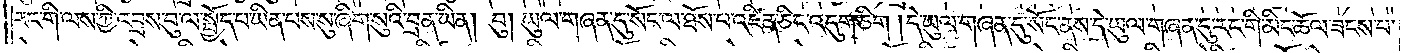རང་གི་ལས་ཀྱི་འབྲས་བུ་ལ་སྤྱོད་པ་ཡིན་པས་སུ་ཞིག་སུའི་བྲན་ཡིན། བུ། ཡུལ་གཞན་དུ་སོང་ལ་ཐོས་པ་འཛིན་ཅིང་འདུག་ཅིག། དེ་ཡུལ་གཞན་དུ་སོང་ནས་དེ་ཡུལ་གཞན་དུ་རང་གི་མིང་ཆོལ་ཟངས་པ་
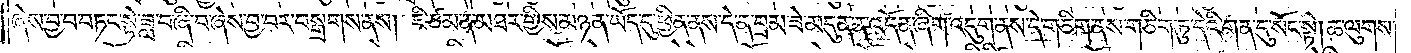ཞེས་བྱ་བ་བཏང་སྟེ་ཟླ་བ་ཞི་བ་ཞེས་བྱ་བར་བསྒྲགས་ནས། ཇི་ཙམ་ན་མཐར་གྱིས་མཉན་ཡོད་དུ་ཕྱིན་ནས་དེ་ན་བྲམ་ཟེ་མདུན་ན་འདོན་ཞིག་འདུག་ནས་དེ་གཅིག་ནས་གཅིག་ཏུ་དེའི་གན་དུ་སོང་སྟེ། ཆ་ལུགས་
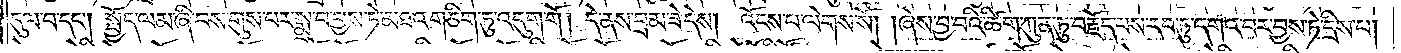དུལ་བ་དང༌། སྤྱོད་ལམ་ཞི་བས་གུས་པར་སྨྲ་བར་བྱས་ཏེ་མཐའ་གཅིག་ཏུ་འདུག་གོ། དེ་ནས་བྲམ་ཟེ་དེས། འོངས་པ་ལེགས་སོ། །ཞེས་བྱ་བའི་ཚིག་ཀུན་ཏུ་བརྗོད་པས་རབ་ཏུ་དགའ་བར་བྱས་ཏེ་དྲིས་པ།
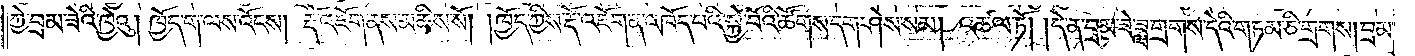ཀྱེ་བྲམ་ཟེའི་ཁྱེའུ། ཁྱོད་ག་ལས་འོངས། རྡོ་འཇོག་ནས་མཆིས་སོ། །ཁྱོད་ཀྱིས་རྡོ་འཇོག་ན་འཁོད་པའི་སྐྱེ་བོའི་ཚོགས་དག་ཤེས་སམ། འཚལ་ཏོ། །དེ་ནས་བྲམ་ཟེ་ཟླ་གྲགས་དེའི་གཏམ་ཅི་གྲགས། བྲམ་
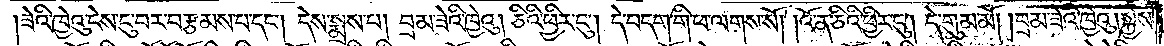ཟེའི་ཁྱེའུ་ངེས་ངུ་བར་བརྩམས་པ་དང༌། དེས་སྨྲས་པ། བྲམ་ཟེའི་ཁྱེའུ། ཅིའི་ཕྱིར་ངུ༌། དེ་བདག་གི་ཕ་ལགས་སོ། །འོ་ན་ཅིའི་ཕྱིར་ངུ༌། དེ་གུམ་མོ། །བྲམ་ཟེའི་ཁྱེའུ། སྐྱེས་
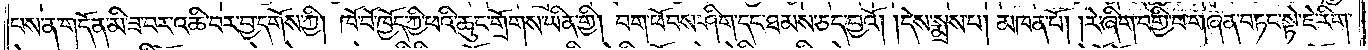པས་ན་གདོན་མི་ཟ་བར་འཆི་བར་བྱ་དགོས་ཀྱི། ཁོ་བོ་ཁྱོད་ཀྱི་ཕའི་ཆུང་གྲོགས་ཡིན་གྱི། བག་ཕོབས་ཤིག་དང་ཐམས་ཅད་བྱའོ། །དེས་སྨྲས་པ། མཁན་པོ། །རེ་ཞིག་བགྱི་བ་གཞན་བཏང་སྟེ་ཇེ་རིག་
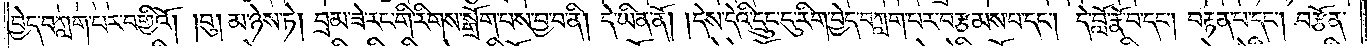བྱེད་བཀླག་པར་བགྱིའོ། །བུ། མ་ཉེས་ཏེ། བྲམ་ཟེ་རང་གི་རིགས་སྒྲོག་པས་བྱ་བ་ནི། དེ་ཡིན་ནོ། །དེས་དེའི་དྲུང་དུ་རིག་བྱེད་བཀླག་པར་བརྩམས་པ་དང༌། དེ་བློ་རྣོ་བ་དང༌། བརྟན་པ་དང༌། བརྩོན་
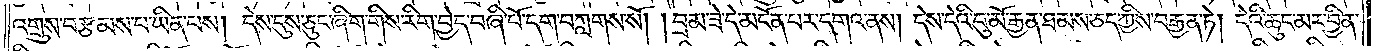འགྲུས་བརྩམས་པ་ཡིན་པས། དེས་དུས་ཅུང་ཞིག་གིས་རིག་བྱེད་བཞི་པོ་དག་བཀླགས་སོ། །བྲམ་ཟེ་དེ་མངོན་པར་དགའ་ནས། དེས་དེའི་བུ་མོ་རྒྱན་ཐམས་ཅད་ཀྱིས་བརྒྱན་ཏེ། དེའི་ཆུང་མར་བྱིན་
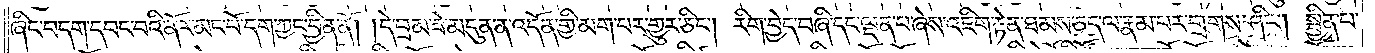ཞིང་བདག་དབང་བའི་ནོར་མང་པོ་དག་ཀྱང་བྱིན་ནོ། །དེ་བྲམ་ཟེ་མདུན་ན་འདོན་གྱི་མག་པར་གྱུར་ཅིང༌། རིག་བྱེད་བཞི་དང་ལྡན་པ་ཞེས་འཇིག་རྟེན་ཐམས་ཅད་ལ་རྣམ་པར་གྲགས་ཤིང༌། སྦྱིན་པ་
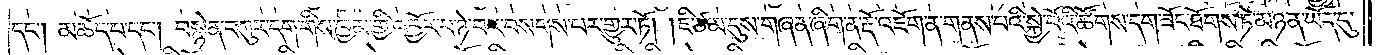དང༌། མཆོད་པ་དང༌། བསྙེན་བཀུར་དག་གིས་ཁྱིམ་གྱི་འབྱོར་པ་ཉེ་བར་བསགས་པར་གྱུར་ཏོ། །ཇི་ཙམ་དུས་གཞན་ཞིག་ན་རྡོ་འཇོག་ན་གནས་པའི་སྐྱེ་བོའི་ཚོགས་དག་ཟོང་ཐོགས་ཏེ་མཉན་ཡོད་དུ་
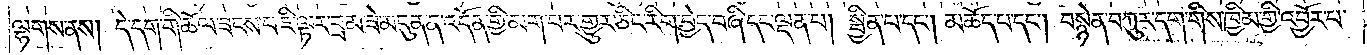ལྷགས་ནས། དེ་དག་གི་ཆོལ་ཟངས་པ་ཇི་ལྟར་བྲམ་ཟེ་མདུན་ན་འདོན་གྱི་མག་པར་གྱུར་ཅིང་རིག་བྱེད་བཞི་དང་ལྡན་པ། སྦྱིན་པ་དང༌། མཆོད་པ་དང༌། བསྙེན་བཀུར་དག་གིས་ཁྱིམ་གྱི་འབྱོར་པ་
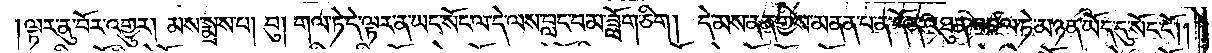ལྟར་ནུ་བོར་འགྱུར། མས་སྨྲས་པ། བུ། གལ་ཏེ་དེ་ལྟར་ན་ཡང་སོང་ལ་དེ་ལས་བླང་བ་མ་ཟློག་ཅིག། དེ་མས་ནན་གྱིས་མནན་པ་ན་དོན་འཐུན་བཙལ་ཏེ་མཉན་ཡོད་དུ་སོང་ངོ༌། །
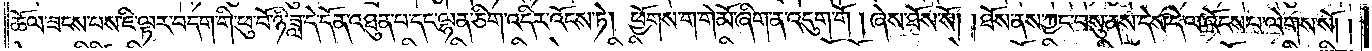ཆོལ་ཟངས་པས་ཇི་ལྟར་བདག་གི་ཕུ་བོ་ཉི་ཟླ་དེ་དོན་འཐུན་པ་དང་ལྷན་ཅིག་འདིར་འོངས་ཏེ། ཕྱོགས་ག་གེ་མོ་ཞིག་ན་འདུག་གོ །ཞེས་ཐོས་སོ། །ཐོས་ནས་ཀྱང་བསུ་ནས་དེས་དེ་ལ་འོངས་པ་ལེགས་སོ། །
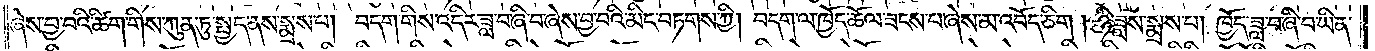ཞེས་བྱ་བའི་ཚིག་གིས་ཀུན་ཏུ་སྤྱད་ནས་སྨྲས་པ། བདག་གིས་འདིར་ཟླ་བཞི་བ་ཞེས་བྱ་བའི་མིང་བཏགས་ཀྱི། བདག་ལ་ཁྱོད་ཆོལ་ཟངས་པ་ཞེས་མ་འབོད་ཅིག། ཉི་ཟླས་སྨྲས་པ། ཁྱོད་ཟླ་བ་ཞི་བ་ཡིན་
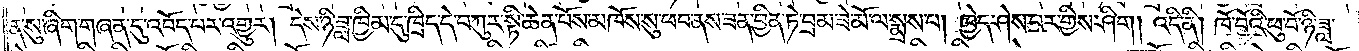ན་སུ་ཞིག་གཞན་དུ་འབོད་པར་འགྱུར། དེས་ཉི་ཟླ་ཁྱིམ་དུ་ཁྲིད་དེ་བཀུར་སྟི་ཆེན་པོས་མཁོས་སུ་ཕབ་ནས་ཟན་བྱིན་ཏེ་བྲམ་ཟེ་མོ་ལ་སྨྲས་པ། ཁྱེད་ཤེས་པར་གྱིས་ཤིག། འདི་ནི། ཁོ་བོའི་ཕུ་བོ་ཉི་ཟླ་
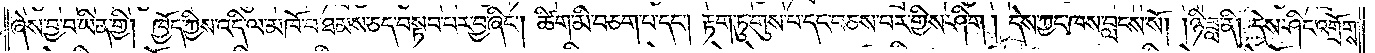ཞེས་བྱ་བ་ཡིན་གྱི། ཁྱོད་ཀྱིས་འདི་ལ་མཁོ་བ་ཐམས་ཅད་བསྟབ་པར་བྱ་ཞིང༌། ཚིག་མི་བཅག་པ་དང༌། རྟག་ཏུ་གུས་པ་དང་བཅས་པར་གྱིས་ཤིག། དེས་ཀྱང་ཁས་བླངས་སོ། །ཉི་ཟླ་ནི། དེས་ཤིང་འགྲོགས་
